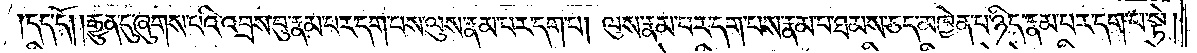དད་དོ། །རྒྱུན་དུ་ཞུགས་པའི་འབྲས་བུ་རྣམ་པར་དག་པས་ལུས་རྣམ་པར་དག་པ། ལུས་རྣམ་པར་དག་པས་རྣམ་པ་ཐམས་ཅད་མཁྱེན་པ་ཉིད་རྣམ་པར་དག་པ་སྟེ།
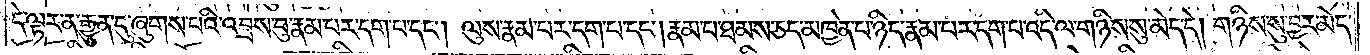དེ་ལྟར་ན་རྒྱུན་དུ་ཞུགས་པའི་འབྲས་བུ་རྣམ་པར་དག་པ་དང༌། ལུས་རྣམ་པར་དག་པ་དང༌། རྣམ་པ་ཐམས་ཅད་མཁྱེན་པ་ཉིད་རྣམ་པར་དག་པ་འདི་ལ་གཉིས་སུ་མེད་དེ། གཉིས་སུ་བྱར་མེད་
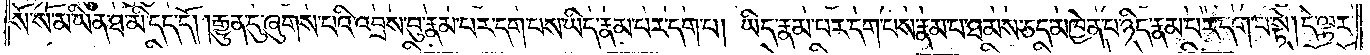སོ་སོ་མ་ཡིན་ཐ་མི་དད་དོ། །རྒྱུན་དུ་ཞུགས་པའི་འབྲས་བུ་རྣམ་པར་དག་པས་ཡིད་རྣམ་པར་དག་པ། ཡིད་རྣམ་པར་དག་པས་རྣམ་པ་ཐམས་ཅད་མཁྱེན་པ་ཉིད་རྣམ་པར་དག་པ་སྟེ། དེ་ལྟར་
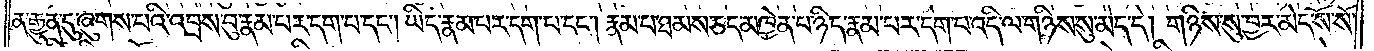ན་རྒྱུན་དུ་ཞུགས་པའི་འབྲས་བུ་རྣམ་པར་དག་པ་དང༌། ཡིད་རྣམ་པར་དག་པ་དང༌། རྣམ་པ་ཐམས་ཅད་མཁྱེན་པ་ཉིད་རྣམ་པར་དག་པ་འདི་ལ་གཉིས་སུ་མེད་དེ། གཉིས་སུ་བྱར་མེད་སོ་སོ་
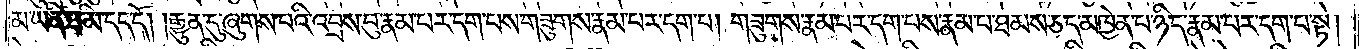མ་ཡིན་ཐ་མི་དད་དོ། །རྒྱུན་དུ་ཞུགས་པའི་འབྲས་བུ་རྣམ་པར་དག་པས་གཟུགས་རྣམ་པར་དག་པ། གཟུགས་རྣམ་པར་དག་པས་རྣམ་པ་ཐམས་ཅད་མཁྱེན་པ་ཉིད་རྣམ་པར་དག་པ་སྟེ།
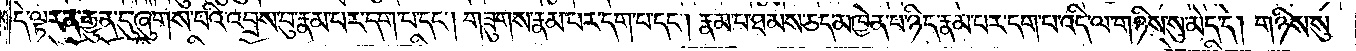དེ་ལྟར་ན་རྒྱུན་དུ་ཞུགས་པའི་འབྲས་བུ་རྣམ་པར་དག་པ་དང༌། གཟུགས་རྣམ་པར་དག་པ་དང༌། རྣམ་པ་ཐམས་ཅད་མཁྱེན་པ་ཉིད་རྣམ་པར་དག་པ་འདི་ལ་གཉིས་སུ་མེད་དེ། གཉིས་སུ་
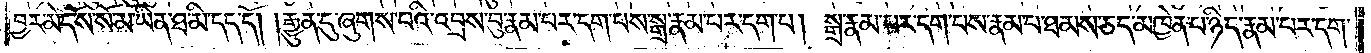བྱར་མེད་སོ་སོ་མ་ཡིན་ཐ་མི་དད་དོ། །རྒྱུན་དུ་ཞུགས་པའི་འབྲས་བུ་རྣམ་པར་དག་པས་སྒྲ་རྣམ་པར་དག་པ། སྒྲ་རྣམ་པར་དག་པས་རྣམ་པ་ཐམས་ཅད་མཁྱེན་པ་ཉིད་རྣམ་པར་དག་
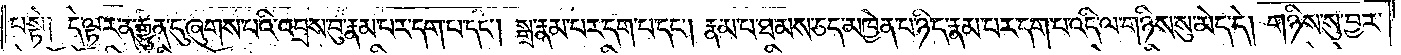པ་སྟེ། དེ་ལྟར་ན་རྒྱུན་དུ་ཞུགས་པའི་འབྲས་བུ་རྣམ་པར་དག་པ་དང༌། སྒྲ་རྣམ་པར་དག་པ་དང༌། རྣམ་པ་ཐམས་ཅད་མཁྱེན་པ་ཉིད་རྣམ་པར་དག་པ་འདི་ལ་གཉིས་སུ་མེད་དེ། གཉིས་སུ་བྱར་
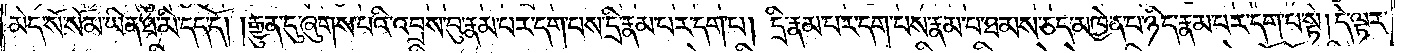མེད་སོ་སོ་མ་ཡིན་ཐ་མི་དད་དོ། །རྒྱུན་དུ་ཞུགས་པའི་འབྲས་བུ་རྣམ་པར་དག་པས་དྲི་རྣམ་པར་དག་པ། དྲི་རྣམ་པར་དག་པས་རྣམ་པ་ཐམས་ཅད་མཁྱེན་པ་ཉིད་རྣམ་པར་དག་པ་སྟེ། དེ་ལྟར་
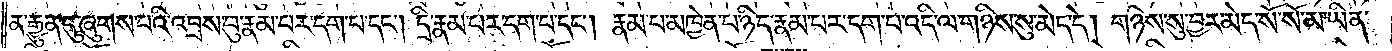ན་རྒྱུན་དུ་ཞུགས་པའི་འབྲས་བུ་རྣམ་པར་དག་པ་དང༌། དྲི་རྣམ་པར་དག་པ་དང༌། རྣམ་པ་མཁྱེན་པ་ཉིད་རྣམ་པར་དག་པ་འདི་ལ་གཉིས་སུ་མེད་དེ། གཉིས་སུ་བྱར་མེད་སོ་སོ་མ་ཡིན་
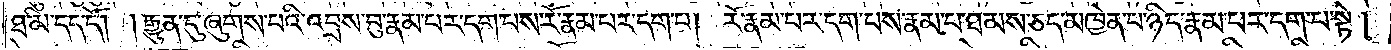ཐ་མི་དད་དོ། །རྒྱུན་དུ་ཞུགས་པའི་འབྲས་བུ་རྣམ་པར་དག་པས་རོ་རྣམ་པར་དག་པ། རོ་རྣམ་པར་དག་པས་རྣམ་པ་ཐམས་ཅད་མཁྱེན་པ་ཉིད་རྣམ་པར་དག་པ་སྟེ།
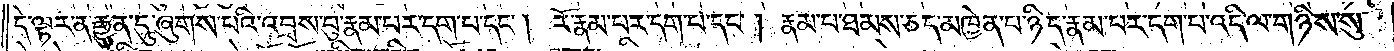དེ་ལྟར་ན་རྒྱུན་དུ་ཞུགས་པའི་འབྲས་བུ་རྣམ་པར་དག་པ་དང༌། རོ་རྣམ་པར་དག་པ་དང༌། རྣམ་པ་ཐམས་ཅད་མཁྱེན་པ་ཉིད་རྣམ་པར་དག་པ་འདི་ལ་གཉིས་སུ་
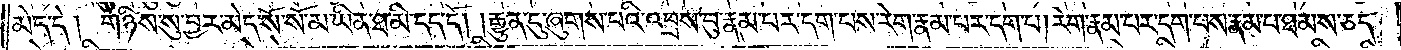མེད་དེ། གཉིས་སུ་བྱར་མེད་སོ་སོ་མ་ཡིན་ཐ་མི་དད་དོ། །རྒྱུན་དུ་ཞུགས་པའི་འབྲས་བུ་རྣམ་པར་དག་པས་རེག་རྣམ་པར་དག་པ། རེག་རྣམ་པར་དག་པས་རྣམ་པ་ཐམས་ཅད་
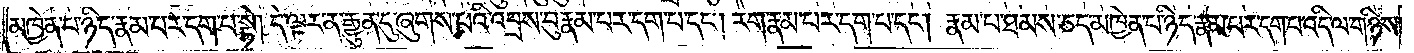མཁྱེན་པ་ཉིད་རྣམ་པར་དག་པ་སྟེ། དེ་ལྟར་ན་རྒྱུན་དུ་ཞུགས་པའི་འབྲས་བུ་རྣམ་པར་དག་པ་དང༌། རེག་རྣམ་པར་དག་པ་དང༌། རྣམ་པ་ཐམས་ཅད་མཁྱེན་པ་ཉིད་རྣམ་པར་དག་པ་འདི་ལ་གཉིས་
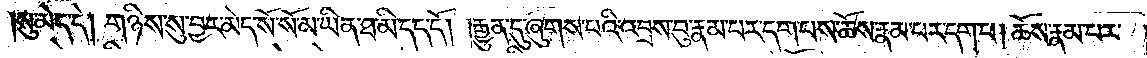སུ་མེད་དེ། གཉིས་སུ་བྱར་མེད་སོ་སོ་མ་ཡིན་ཐ་མི་དད་དོ། །རྒྱུན་དུ་ཞུགས་པའི་འབྲས་བུ་རྣམ་པར་དག་པས་ཆོས་རྣམ་པར་དག་པ། ཆོས་རྣམ་པར་
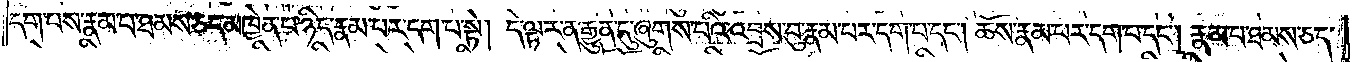དག་པས་རྣམ་པ་ཐམས་ཅད་མཁྱེན་པ་ཉིད་རྣམ་པར་དག་པ་སྟེ། དེ་ལྟར་ན་རྒྱུན་དུ་ཞུགས་པའི་འབྲས་བུ་རྣམ་པར་དག་པ་དང༌། ཆོས་རྣམ་པར་དག་པ་དང༌། རྣམ་པ་ཐམས་ཅད་
